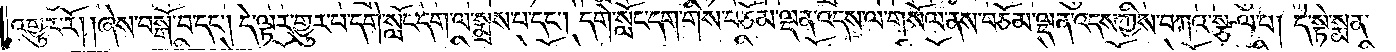འགྱུར་རོ། །ཞེས་བསྒོ་བ་དང༌། དེ་ལྟར་གྱུར་པ་དགེ་སློང་དག་ལ་སྨྲས་པ་དང༌། དགེ་སློང་དག་གིས་བཅོམ་ལྡན་འདས་ལ་གསོལ་ནས་བཅོམ་ལྡན་འདས་ཀྱིས་བཀའ་སྩལ་པ། དེ་སྟེ་སྨན་
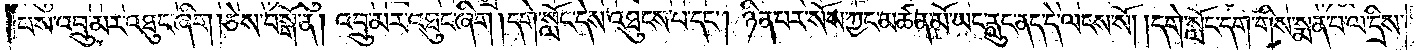པས་འབྲུ་མར་འཐུང་ཞིག །ཅེས་བསྒོ་ན། འབྲུ་མར་འཐུང་ཞིག །དགེ་སློང་དེས་འཐུངས་པ་དང༌། ཉིན་པར་སོས་ཀྱང་མཚན་མོ་ཡང་རླུང་ནད་དེ་ལངས་སོ། །དགེ་སློང་དག་གིས་སྨན་པ་ལ་དྲིས་
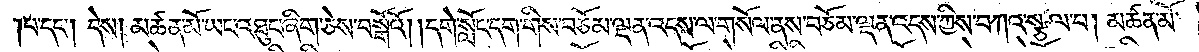པ་དང༌། དེས། མཚན་མོ་ཡང་འཐུང་ཞིག་ཅེས་བསྒོའོ། །དགེ་སློང་དག་གིས་བཅོམ་ལྡན་འདས་ལ་གསོལ་ནས་བཅོམ་ལྡན་འདས་ཀྱིས་བཀའ་སྩལ་པ། མཚན་མོ་
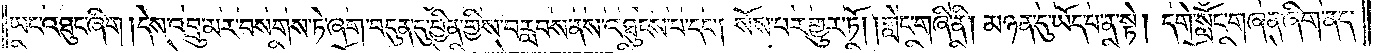ཡང་འཐུང་ཞིག །དེས་འབྲུ་མར་བསགས་ཏེ་ཞག་བདུན་དུ་བྱིན་གྱིས་བརླབས་ནས་འཐུངས་པ་དང༌། སོས་པར་གྱུར་ཏོ། །གླེང་གཞི་ནི། མཉན་དུ་ཡོད་པ་ན་སྟེ། དགེ་སློང་གཞན་ཞིག་ནད་
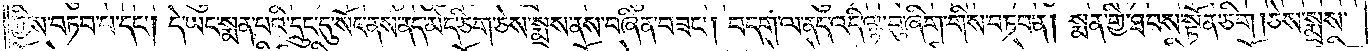ཀྱིས་བཏབ་པ་དང༌། དེ་ཡང་སྨན་པའི་དྲུང་དུ་སོང་ནས་ནད་མེད་ཅིག་ཅེས་སྨྲས་ནས་བཞིན་བཟང༌། བདག་ལ་ནད་འདི་ལྟ་བུ་ཞིག་གིས་བཏབ་ན། སྨན་གྱི་ཐབས་སྟོན་ཅིག །ཅེས་སྨྲས་
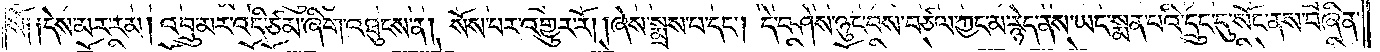སོ༑ ༑དེས་མར་རམ། འབྲུ་མར་འདི་ཙམ་ཞིག་འཐུངས་ན། སོས་པར་འགྱུར་རོ། །ཞེས་སྨྲས་པ་དང༌། དེ་བཤེས་ཉུང་བས་བཙལ་ཀྱང་མ་རྙེད་ནས་ཡང་སྨན་པའི་དྲུང་དུ་སོང་ནས་བཞིན་
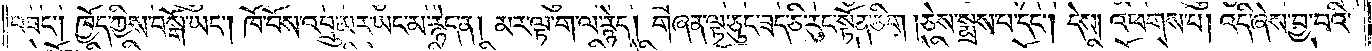བཟང༌། ཁྱོད་ཀྱིས་བསྒོ་ཡང༌། ཁོ་བོས་འབྲུ་མར་ཡང་མ་རྙེད་ན། མར་ལྟ་ག་ལ་རྙེད། གཞན་ལྟ་ཅུང་ཟད་ཅི་རུང་སྟོན་ཅིག །ཅེས་སྨྲས་པ་དང༌། དེས། འཕགས་པ། འདི་ཞེས་བྱ་བའི་
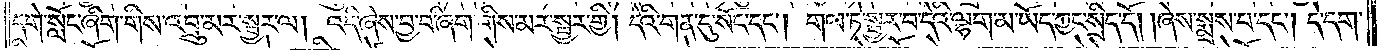དགེ་སློང་ཞིག་གིས་འབྲུ་མར་སྦྱར་ལ། འདི་ཞེས་བྱ་བ་ཞིག་གིས་མར་སྦྱར་གྱི། དེའི་གན་དུ་སོང་དང༌། གལ་ཏེ་སྦྱར་བ་དེའི་ལྷག་མ་ཡོད་ཀྱང་སྲིད་དོ། །ཞེས་སྨྲས་པ་དང༌། དེ་དག་
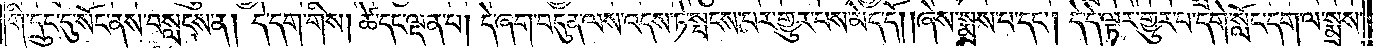གི་དྲུང་དུ་སོང་ནས་བསླངས་ན། དེ་དག་གིས། ཚེ་དང་ལྡན་པ། དེ་ཞག་བདུན་ལས་འདས་ཏེ་སྤངས་པར་གྱུར་པས་མེད་དོ། །ཞེས་སྨྲས་པ་དང༌། དེ་དེ་ལྟར་གྱུར་པ་དགེ་སློང་དག་ལ་སྨྲས་
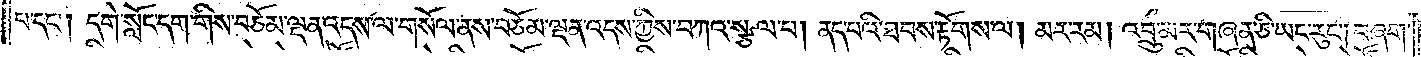པ་དང༌། དགེ་སློང་དག་གིས་བཅོམ་ལྡན་འདས་ལ་གསོལ་ནས་བཅོམ་ལྡན་འདས་ཀྱིས་བཀའ་སྩལ་པ། ནད་པའི་ཐབས་རྟོགས་ལ། མར་རམ། འབྲུ་མར་གཞན་ཅི་ཡང་རུང༌། བཞག་
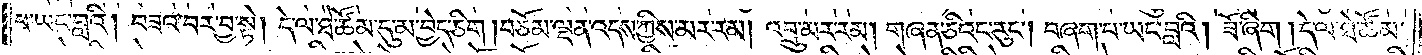པ་ཡང་བླའི། བཟའ་བར་བྱ་སྟེ། དེ་ལ་ཐེ་ཚོམ་དུ་མ་བྱེད་ཅིག །བཅོམ་ལྡན་འདས་ཀྱིས་མར་རམ། འབྲུ་མར་རམ། གཞན་ཅིའང་རུང༌། བཞག་པ་ཡང་བླའི། ཟོ་ཞིག །དེ་ལ་ཐེ་ཚོམ་
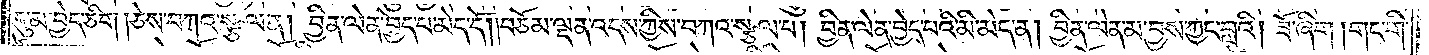དུ་མ་བྱེད་ཅིག །ཅེས་བཀའ་སྩལ་ན། བྱིན་ལེན་བྱེད་པ་མེད་དོ། །བཅོམ་ལྡན་འདས་ཀྱིས་བཀའ་སྩལ་པ། བྱིན་ལེན་བྱེད་པའི་མི་མེད་ན། བྱིན་ལེན་མ་བྱས་ཀྱང་བླའི། ཟོ་ཞིག །གང་གི་
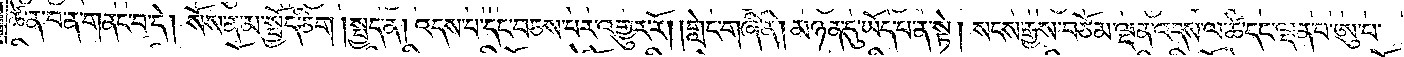ཚེ་ན་བ་ན་གནང་བ་དེ། སོས་ན་མ་སྤྱོད་ཅིག །སྤྱད་ན། འདས་པ་དང་བཅས་པར་འགྱུར་རོ། །གླེང་གཞི་ནི། མཉན་དུ་ཡོད་པ་ན་སྟེ། སངས་རྒྱས་བཅོམ་ལྡན་འདས་ལ་ཚེ་དང་ལྡན་པ་ཨུ་པ་
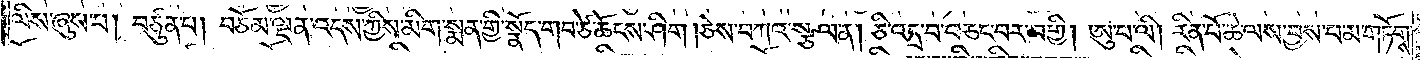ལིས་ཞུས་པ། བཙུན་པ། བཅོམ་ལྡན་འདས་ཀྱིས་མིག་སྨན་གྱི་སྣོད་གབ་ཙེ་ཆོངས་ཤིག །ཅེས་བཀའ་སྩལ་ན། ཅི་འདྲ་བ་བཅང་བར་བགྱི། ཨུ་པ་ལི། རིན་པོ་ཆེ་ལས་བྱས་པ་མ་གཏོགས་
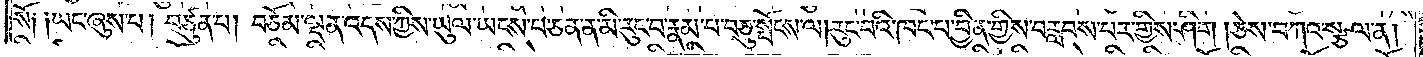སོ༑ ༑ཡང་ཞུས་པ། བཙུན་པ། བཅོམ་ལྡན་འདས་ཀྱིས་ཡུལ་ཡངས་པ་ཅན་ན་མི་རུང་བ་རྣམ་པ་བཅུ་སྤོངས་ལ། རུང་བའི་ཁང་པ་བྱིན་གྱིས་བརླབས་པར་གྱིས་ཤིག །ཅེས་བཀའ་སྩལ་ན།
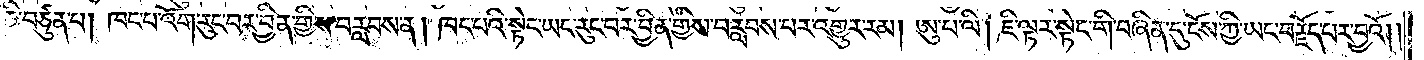ཅི་བཙུན་པ། ཁང་པ་འོག་རུང་བར་བྱིན་གྱིས་བརླབས་ན། ཁང་པའི་སྟེང་ཡང་རུང་བར་བྱིན་གྱིས་བརླབས་པར་འགྱུར་རམ། ཨུ་པ་ལི། ཇི་ལྟར་སྟེང་གི་བཞིན་དུ་ངོས་ཀྱི་ཡང་བརྗོད་པར་བྱའོ། །
